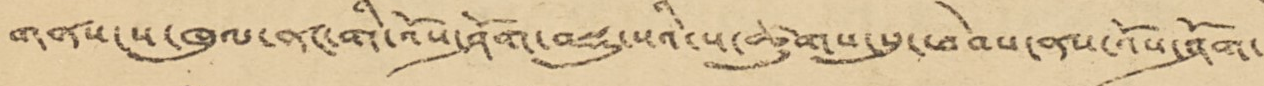གནས་ས་ཁུལ་ནང་གི་འོས་ཤོག་བསྡུ་སའི་ས་ཚུགས་སུ་ཕེབས་ནས་འོས་ཤོག་
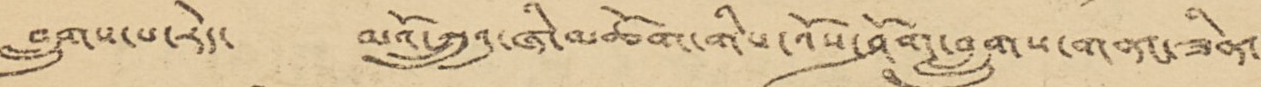བླུགས་པ་རེད་ མའོ་ཀྲུའུ་ཞི་མཆོག་གིས་འོས་ཤོག་བླུགས་གནང་ཟིན་
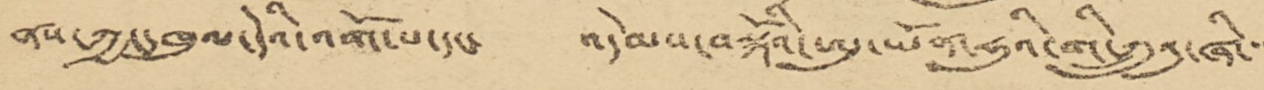ནས་ཀྱང་ཁུལ་དེའི་འགོ་པ་དང་ འདེམས་བསྐོའི་ཨུ་ཡོན་ཧུའི་གི་ཀྲུའུ་ཞི་་་
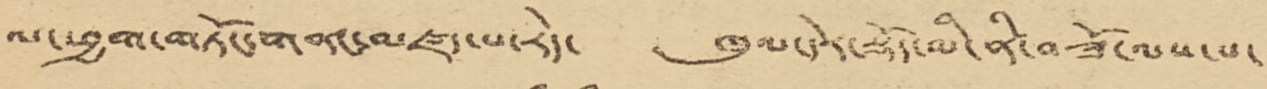ལ་ཕྱག་གཏོང་གནང་མཛད་པ་རེད་ ཁུལ་དེར་སྡོད་མི་ནི་བཟོ་ལས་པ་
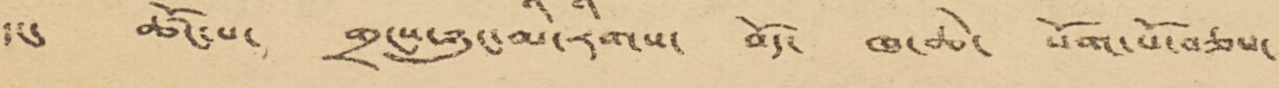དང་ ཚོང་པ་ གྲངས་ཉུང་མི་རིགས་ བོད་ ཁ་ཆེ་ སོག་པོ་བཅས་
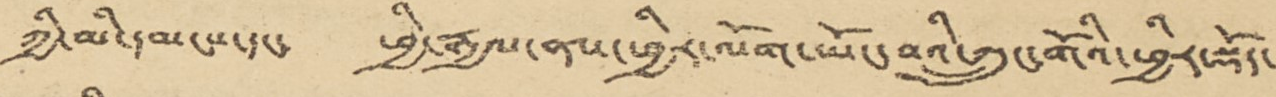ཀྱི་མི་དམངས་དང་ ཕྱི་རྒྱལ་ནས་ཕྱིར་ལོག་ཡོང་བའི་ཀྲུང་གོའི་ཕྱིར་སྡོད་
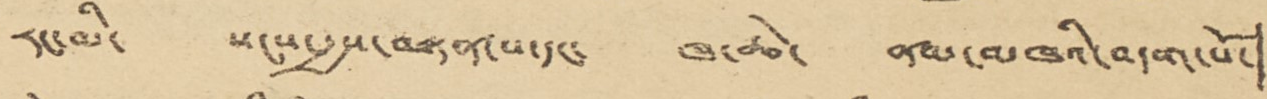རང་མི་ སངས་རྒྱས་བསཏན་པ་དང་ ཁ་ཆེ་ ནམ་མཁའི་བདག་པོ་།
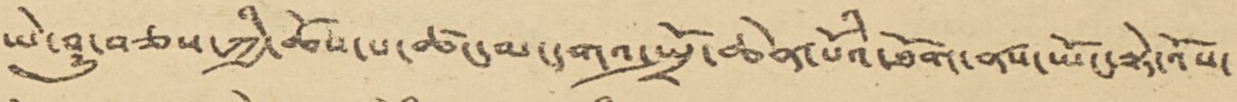ཡེ་ཤུ་བཅས་ཀྱི་ཆོས་པ་ཚང་མ་དགའ་སྤྲོ་ཆེན་པོའི་ཐོག་ནས་ཡོང་སྟེ་འོས་
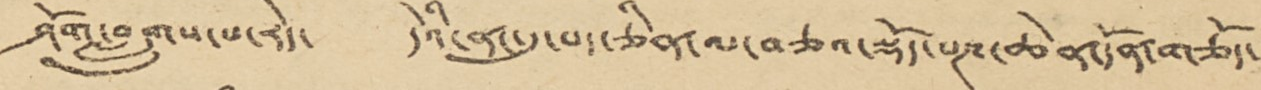ཤོག་བླུགས་པ་རེད་ དེའི་ནང་དུ་པད་ཅིན་ལ་བཅའ་སྡོད་པཎ་ཆེན་དོན་གཅོད་
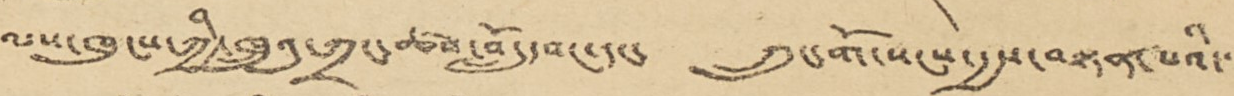ལས་ཁུངས་ཀྱི་ཁྲུའུ་ཀྲང་ཚབ་བློ་དབང་དང་ ཀྲུང་གོ་སངས་རྒྱས་བསྟན་པའི་་་
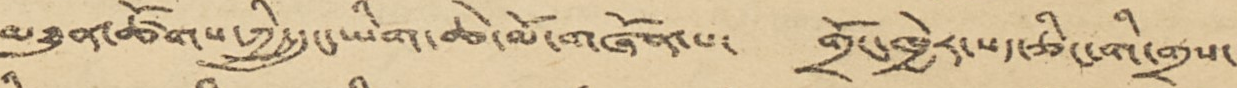མཐུན་ཚོགས་ཀྱི་དྲུང་ཡིག་ཆེ་མོ་གཞོན་པ་ གྲོང་ཁྱེར་པད་ཅིང་གི་གྲས་
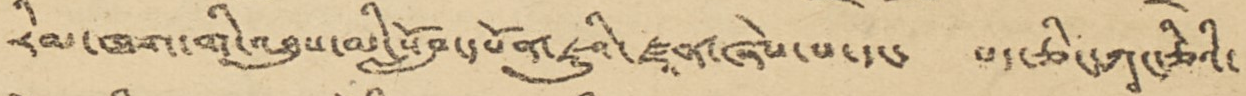རིམ་ཁག་གི་འཐུས་མི་སློབ་དཔོན་ཇུའི་ཛཱན་ཞེས་པ་དང་ པད་ཅིང་ཀཱང་ཅིའི་
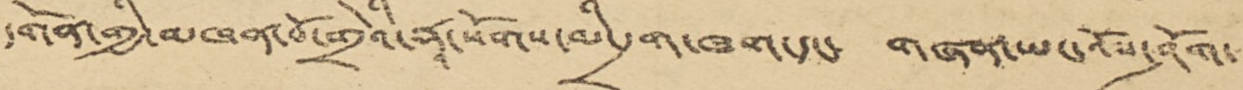དགོན་གྱི་མཁན་པོ་གྲེའི་རྡཱ་སོགས་མི་དྲག་ཁག་དང་ གཞན་ཡང་འོས་ཤོག་
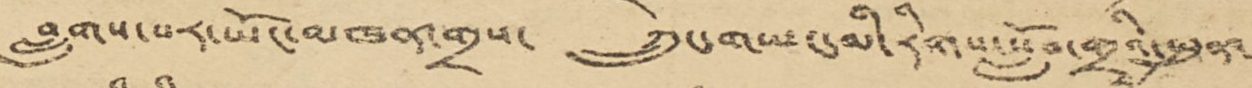བླུགས་པར་ཡོང་མཁན་གྲས་ ཀྲུང་གཡང་མི་རིགས་སློབ་གྲྭའི་སྤུན་
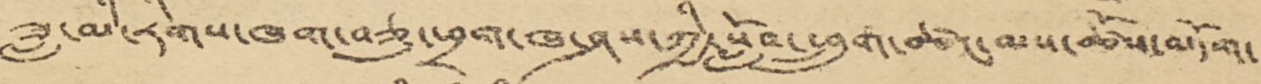ཟླ་མི་རིགས་ཁག་བཅུ་ཕྲག་ཁ་ཤས་ཀྱི་སློབ་ཕྲུག་ཚང་མས་ཚོས་མདོག་
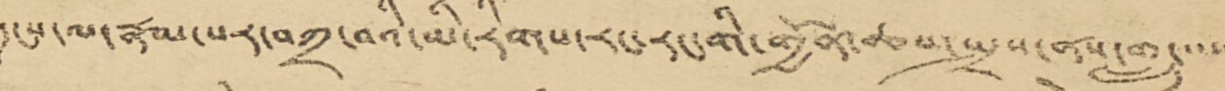དྭངས་ལ་རྣམ་པར་བཀྲ་བའི་མི་རིགས་རང་རང་གི་གྱོན་ཆས་སྤྲས་ནས་གླུ་་་་་
